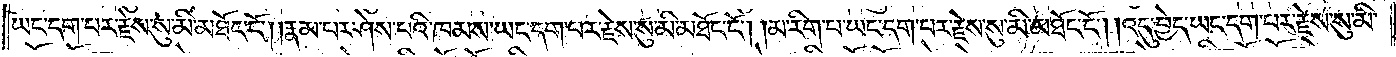ཡང་དག་པར་རྗེས་སུ་མི་མཐོང་ངོ༌། །རྣམ་པར་ཤེས་པའི་ཁམས་ཡང་དག་པར་རྗེས་སུ་མི་མཐོང་ངོ༌། །མ་རིག་པ་ཡང་དག་པར་རྗེས་སུ་མི་མཐོང་ངོ༌། །འདུ་བྱེད་ཡང་དག་པར་རྗེས་སུ་མི་
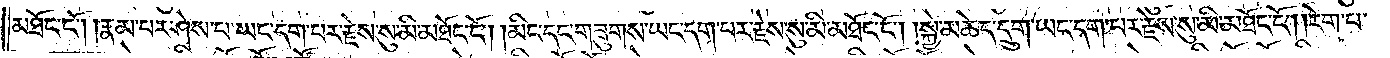མཐོང་ངོ༌། །རྣམ་པར་ཤེས་པ་ཡང་དག་པར་རྗེས་སུ་མི་མཐོང་ངོ༌། །མིང་དང་གཟུགས་ཡང་དག་པར་རྗེས་སུ་མི་མཐོང་ངོ༌། །སྐྱེ་མཆེད་དྲུག་ཡང་དག་པར་རྗེས་སུ་མི་མཐོང་ངོ༌། །རེག་པ་
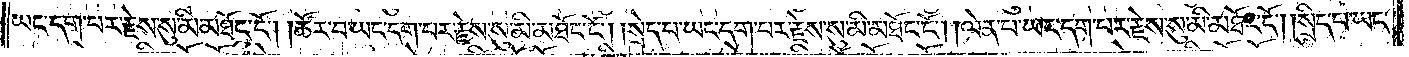ཡང་དག་པར་རྗེས་སུ་མི་མཐོང་ངོ༌། །ཚོར་བ་ཡང་དག་པར་རྗེས་སུ་མི་མཐོང་ངོ༌། །སྲེད་པ་ཡང་དག་པར་རྗེས་སུ་མི་མཐོང་ངོ༌། །ལེན་པ་ཡང་དག་པར་རྗེས་སུ་མི་མཐོང་ངོ༌། །སྲིད་པ་ཡང་
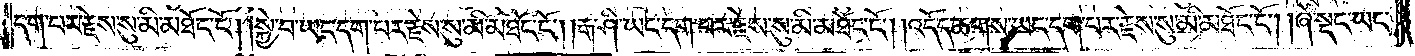དག་པར་རྗེས་སུ་མི་མཐོང་ངོ༌། །སྐྱེ་བ་ཡང་དག་པར་རྗེས་སུ་མི་མཐོང་ངོ༌། །རྒ་ཤི་ཡང་དག་པར་རྗེས་སུ་མི་མཐོང་ངོ༌། །འདོད་ཆགས་ཡང་དག་པར་རྗེས་སུ་མི་མཐོང་ངོ༌། །ཞེ་སྡང་ཡང་
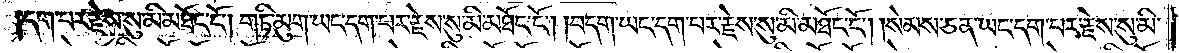དག་པར་རྗེས་སུ་མི་མཐོང་ངོ༌། གཏི་མུག་ཡང་དག་པར་རྗེས་སུ་མི་མཐོང་ངོ༌། །བདག་ཡང་དག་པར་རྗེས་སུ་མི་མཐོང་ངོ༌། །སེམས་ཅན་ཡང་དག་པར་རྗེས་སུ་མི་
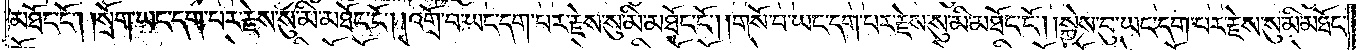མཐོང་ངོ༌། །སྲོག་ཡང་དག་པར་རྗེས་སུ་མི་མཐོང་ངོ༌། །འགྲོ་བ་ཡང་དག་པར་རྗེས་སུ་མི་མཐོང་ངོ༌། །གསོ་བ་ཡང་དག་པར་རྗེས་སུ་མི་མཐོང་ངོ༌། །སྐྱེས་བུ་ཡང་དག་པར་རྗེས་སུ་མི་མཐོང་
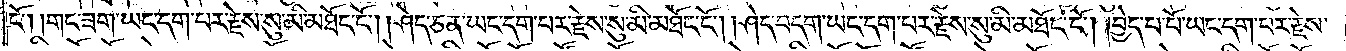ངོ༌། །གང་ཟག་ཡང་དག་པར་རྗེས་སུ་མི་མཐོང་ངོ༌། །ཤེད་ཅན་ཡང་དག་པར་རྗེས་སུ་མི་མཐོང་ངོ༌། །ཤེད་བདག་ཡང་དག་པར་རྗེས་སུ་མི་མཐོང་ངོ༌། །བྱེད་པ་པོ་ཡང་དག་པར་རྗེས་
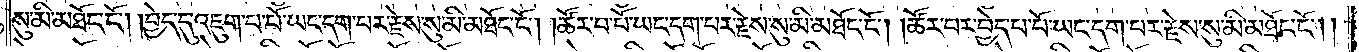སུ་མི་མཐོང་ངོ༌། །བྱེད་དུ་འཇུག་པ་པོ་ཡང་དག་པར་རྗེས་སུ་མི་མཐོང་ངོ༌། །ཚོར་བ་པོ་ཡང་དག་པར་རྗེས་སུ་མི་མཐོང་ངོ༌། །ཚོར་བར་བྱེད་པ་པོ་ཡང་དག་པར་རྗེས་སུ་མི་མཐོང་ངོ༌༎
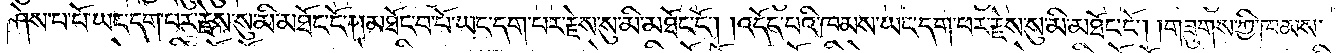ཤེས་པ་པོ་ཡང་དག་པར་རྗེས་སུ་མི་མཐོང་ངོ༌། །མཐོང་བ་པོ་ཡང་དག་པར་རྗེས་སུ་མི་མཐོང་ངོ༌། །འདོད་པའི་ཁམས་ཡང་དག་པར་རྗེས་སུ་མི་མཐོང་ངོ༌། །གཟུགས་ཀྱི་ཁམས་
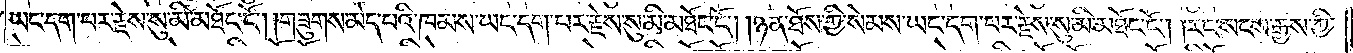ཡང་དག་པར་རྗེས་སུ་མི་མཐོང་ངོ༌། །གཟུགས་མེད་པའི་ཁམས་ཡང་དག་པར་རྗེས་སུ་མི་མཐོང་ངོ༌། །ཉན་ཐོས་ཀྱི་སེམས་ཡང་དག་པར་རྗེས་སུ་མི་མཐོང་ངོ༌། །རང་སངས་རྒྱས་ཀྱི་
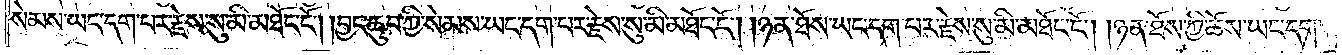སེམས་ཡང་དག་པར་རྗེས་སུ་མི་མཐོང་ངོ༌། །བྱང་ཆུབ་ཀྱི་སེམས་ཡང་དག་པར་རྗེས་སུ་མི་མཐོང་ངོ༌། །ཉན་ཐོས་ཡང་དག་པར་རྗེས་སུ་མི་མཐོང་ངོ༌། །ཉན་ཐོས་ཀྱི་ཆོས་ཡང་དག་
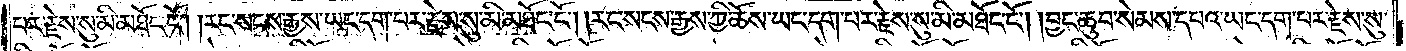པར་རྗེས་སུ་མི་མཐོང་ངོ༌། །རང་སངས་རྒྱས་ཡང་དག་པར་རྗེས་སུ་མི་མཐོང་ངོ༌། །རང་སངས་རྒྱས་ཀྱི་ཆོས་ཡང་དག་པར་རྗེས་སུ་མི་མཐོང་ངོ༌། །བྱང་ཆུབ་སེམས་དཔའ་ཡང་དག་པར་རྗེས་སུ་
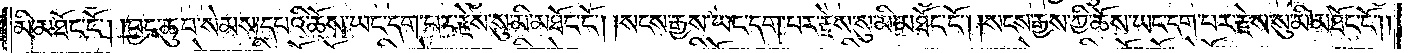མི་མཐོང་ངོ༌། །བྱང་ཆུབ་སེམས་དཔའི་ཆོས་ཡང་དག་པར་རྗེས་སུ་མི་མཐོང་ངོ༌། །སངས་རྒྱས་ཡང་དག་པར་རྗེས་སུ་མི་མཐོང་ངོ༌། །སངས་རྒྱས་ཀྱི་ཆོས་ཡང་དག་པར་རྗེས་སུ་མི་མཐོང་ངོ༌༎
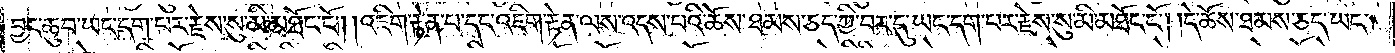བྱང་ཆུབ་ཡང་དག་པར་རྗེས་སུ་མི་མཐོང་ངོ༌། །འཇིག་རྟེན་པ་དང་འཇིག་རྟེན་ལས་འདས་པའི་ཆོས་ཐམས་ཅད་ཀྱི་བར་དུ་ཡང་དག་པར་རྗེས་སུ་མི་མཐོང་ངོ༌། །དེ་ཆོས་ཐམས་ཅད་ཡང་
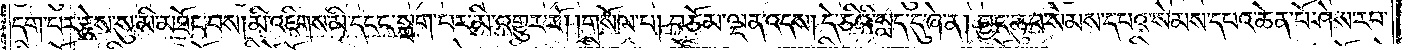དག་པར་རྗེས་སུ་མི་མཐོང་བས། མི་འཇིགས་མི་དངང་སྐྲག་པར་མི་འགྱུར་རོ། །གསོལ་པ། བཅོམ་ལྡན་འདས། དེ་ཅིའི་སླད་དུ་ཞེ་ན། བྱང་ཆུབ་སེམས་དཔའ་སེམས་དཔའ་ཆེན་པོ་ཤེས་རབ་
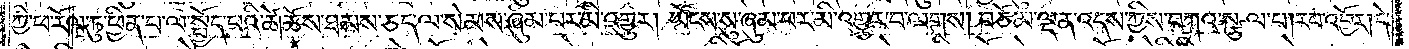ཀྱི་ཕ་རོལ་ཏུ་ཕྱིན་པ་ལ་སྤྱོད་པའི་ཚེ་ཆོས་ཐམས་ཅད་ལ་སེམས་ཞུམ་པར་མི་འགྱུར། ཡོངས་སུ་ཞུམ་པར་མི་འགྱུར་བ་ལགས། བཅོམ་ལྡན་འདས་ཀྱིས་བཀའ་སྩལ་པ། རབ་འབྱོར། དེ་
